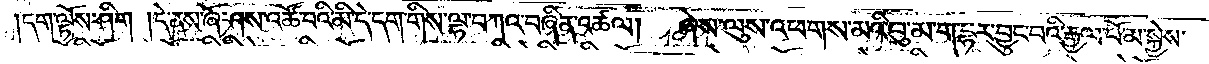དག་ལྟོས་ཤིག །དེ་ནས་ཞོ་ཤས་འཚོ་བའི་མི་དེ་དག་གིས་ལྷ་བཀའ་བཞིན་འཚལ། ཞེས་ལུས་འཕགས་མའི་བུ་མ་ག་དྷར་བྱུང་བའི་རྒྱལ་པོ་མ་སྐྱེས་
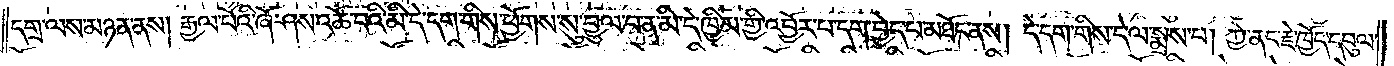དགྲ་ལས་མཉན་ནས། རྒྱལ་པོའི་ཞོ་ཤས་འཚོ་བའི་མི་དེ་དག་གིས་ཕྱོགས་སུ་བྱུལ་བ་ན་མི་དེ་ཁྱིམ་གྱི་འབྱོར་བ་དག་བྱེད་པ་མཐོང་ནས། དེ་དག་གིས་དེ་ལ་སྨྲས་པ། ཀྱེ་ནང་རྗེ་ཁྱོད་དབུལ་
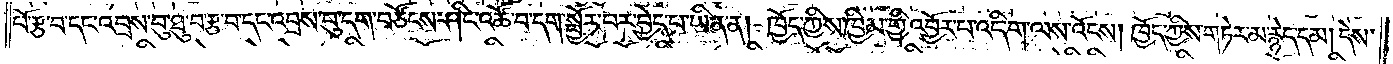པོ་རྩ་བ་དང་འབྲས་བུ་ཐུ་བ་རྩ་བ་དང་འབྲས་བུ་དག་བཙོངས་ཤིང་འཚོ་བ་དག་སྦྱོར་བར་བྱེད་པ་ཡིན་ན། ཁྱོད་ཀྱིས་ཁྱིམ་གྱི་འབྱོར་པ་འདི་ག་ལས་འོངས། ཁྱོད་ཀྱིས་གཏེར་མ་རྙེད་དམ། དེས་
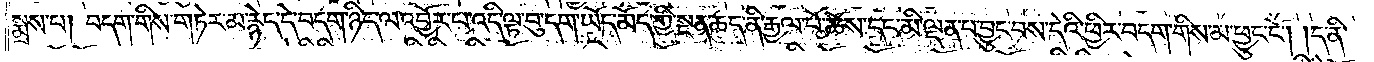སྨྲས་པ། བདག་གིས་གཏེར་མ་རྙེད་དེ་བདག་ཉིད་ལ་འབྱོར་བ་འདི་ལྟ་བུ་དག་ཡོད་མོད་ཀྱི་སྔན་ཆད་ནི་རྒྱལ་པོ་ཆོས་དང་མི་ལྡན་པ་བྱུང་བས་དེའི་ཕྱིར་བདག་གིས་མ་ཕྱུང་ངོ༌། །ད་ནི་
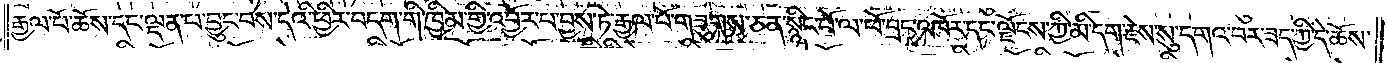རྒྱལ་པོ་ཆོས་དང་ལྡན་པ་བྱུང་བས་དེའི་ཕྱིར་བདག་གི་ཁྱིམ་གྱི་འབྱོར་པ་བྱས་ཏེ་རྒྱལ་པོ་གཟུགས་ཅན་སྙིང་པོ་ལ་ཕོ་བྲང་འཁོར་དང་ལྗོངས་ཀྱི་མི་དག་རྗེས་སུ་དགའ་བར་ཟད་ཀྱི་དེ་ཆོས་
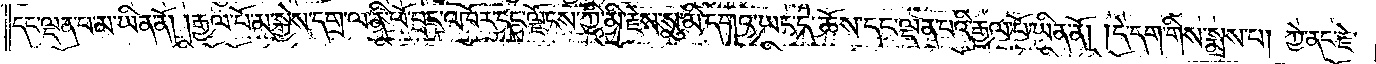དང་ལྡན་པ་མ་ཡིན་ནོ། །རྒྱལ་པོ་མ་སྐྱེས་དགྲ་ལ་ནི་ཕོ་བྲང་འཁོར་དང་ལྗོངས་ཀྱི་མི་རྗེས་སུ་མི་དགའ་ཡང་དེ་ཆོས་དང་ལྡན་པའི་རྒྱལ་པོ་ཡིན་ནོ། །དེ་དག་གིས་སྨྲས་པ། ཀྱེ་ནང་རྗེ་
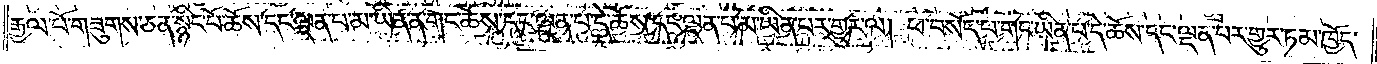རྒྱལ་པོ་གཟུགས་ཅན་སྙིང་པོ་ཆོས་དང་ལྡན་པ་མ་ཡིན་ན་གང་ཆོས་དང་ལྡན་པ་དེ་ཆོས་དང་ལྡན་པ་མ་ཡིན་པར་གྱུར་ལ། ཕ་བསོད་པ་གང་ཡིན་པ་དེ་ཆོས་དང་ལྡན་པར་གྱུར་ཏམ་ཁྱོད་
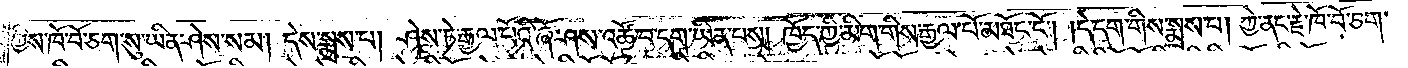ཀྱིས་ཁོ་བོ་ཅག་སུ་ཡིན་ཤེས་སམ། དེས་སྨྲས་པ། ཤེས་ཏེ་རྒྱལ་པོའི་ཞོ་ཤས་འཚོ་བ་དག་ཡིན་པས། ཁྱོད་ཀྱི་མིག་གིས་རྒྱལ་པོ་མཐོང་ངོ༌། །དེ་དག་གིས་སྨྲས་པ། ཀྱེ་ནང་རྗེ་ཁོ་བོ་ཅག་
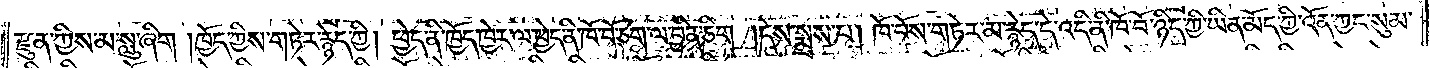རྫུན་ཀྱིས་མ་སླུ་ཞིག །ཁྱོད་ཀྱིས་གཏེར་རྙེད་ཀྱི། ཕྱེད་ནི་ཁྱོད་ཁྱེར་ལ་ཕྱེད་ནི་ཁོ་བོ་ཅག་ལ་བྱིན་ཅིག །དེས་སྨྲས་པ། ཁོ་བོས་གཏེར་མ་རྙེད་དེ་འདི་ནི་ཁོ་བོ་ཉིད་ཀྱི་ཡིན་མོད་ཀྱི་འོན་ཀྱང་སུམ་
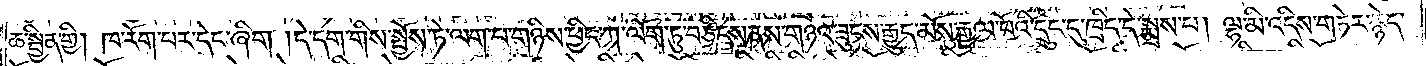ཆ་སྦྱིན་གྱི། ཁ་རོག་པར་དེང་ཞིག །དེ་དག་གིས་སྤྱོས་ཏེ་ལག་པ་གཉིས་ཕྱིང་ཀ་ལོག་ཏུ་བཅིངས་ནས་གཉའ་ཟུངས་རྒྱུད་མོས་རྒྱལ་པོའི་དྲུང་དུ་ཁྲིད་དེ་སྨྲས་པ། ལྷ་མི་འདིས་གཏེར་རྙེད་
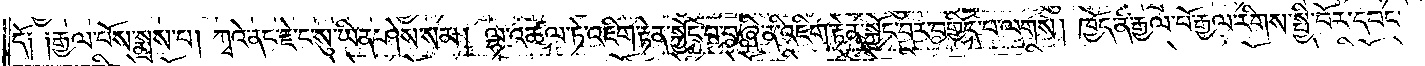དོ། །རྒྱལ་པོས་སྨྲས་པ། ཀྭའེ་ནང་རྗེ་ང་སུ་ཡིན་ཤེས་སམ། ལྷ་འཚལ་ཏེ་འཇིག་རྟེན་སྐྱོང་བ་བཞི་ནི་འཇིག་རྟེན་སྐྱོང་བར་བགྱིད་པ་ལགས། ཁྱོད་ནི་རྒྱལ་པོ་རྒྱལ་རིགས་སྤྱི་བོར་དབང་
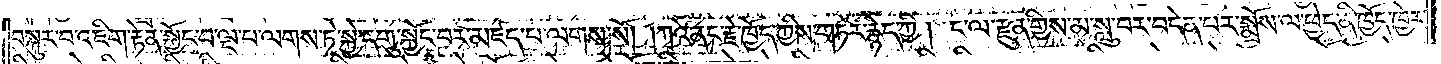བསྐུར་བ་འཇིག་རྟེན་སྐྱོང་བ་ལྔ་པ་ལགས་ཏེ་སྐྱེ་དགུ་སྐྱོང་བར་མཛད་པ་ལགས་སོ། །ཀྭའེ་ནང་རྗེ་ཁྱོད་ཀྱིས་གཏེར་རྙེད་ཀྱི། ང་ལ་རྫུན་གྱིས་མ་སླུ་བར་བདེན་པར་སྨྲོས་ལ་ཕྱེད་ནི་ཁྱོད་ཁྱེར་
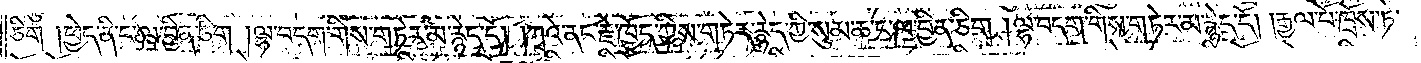ཅིག །ཕྱེད་ནི་ང་ལ་བྱིན་ཅིག །ལྷ་བདག་གིས་གཏེར་མ་རྙེད་དོ། །ཀྭའེ་ནང་རྗེ་ཁྱོད་ཀྱིས་གཏེར་རྙེད་ཀྱི་སུམ་ཆ་ང་ལ་བྱིན་ཅིག །ལྷ་བདག་གིས་གཏེར་མ་རྙེད་དོ། །རྒྱལ་པོ་ཁྲོས་ཏེ་
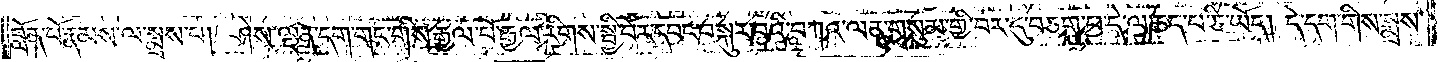བློན་པོ་རྣམས་ལ་སྨྲས་པ། ཤེས་ལྡན་དག་གང་གིས་རྒྱལ་པོ་རྒྱལ་རིགས་སྤྱི་བོར་དབང་བསྐུར་བའི་བཀའ་ལན་གསུམ་གྱི་བར་དུ་བཅག་པ་དེ་ལ་ཆད་པ་ཅི་ཡོད། དེ་དག་གིས་སྨྲས་
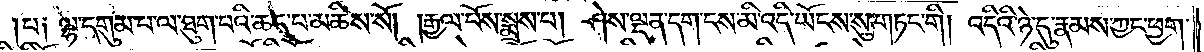པ། ལྷ་དགུམ་པ་ལ་ཐུག་པའི་ཆད་པ་མཆིས་སོ། །རྒྱལ་པོས་སྨྲས་པ། ཤེས་ལྡན་དག་ངས་མི་འདི་ཡོངས་སུ་གཏང་གི། འདིའི་ཉེ་དུ་རྣམས་ཀྱང་ཕྱག་
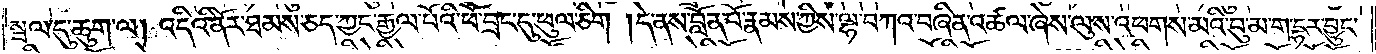སྦལ་དུ་ཆུག་ལ། འདིའི་ནོར་ཐམས་ཅད་ཀྱང་རྒྱལ་པོའི་ཕོ་བྲང་དུ་ཕུལ་ཅིག །དེ་ནས་བློན་པོ་རྣམས་ཀྱིས་ལྷ་བཀའ་བཞིན་འཚལ་ཞེས་ལུས་འཕགས་མའི་བུ་མ་ག་དྷར་བྱུང་
